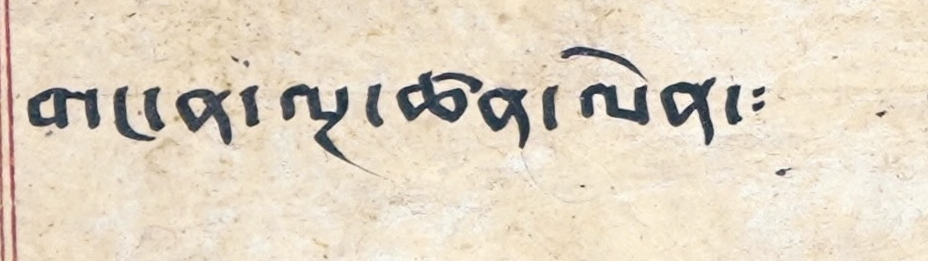གང་ན་ལྔ་ཚེན་ལེན་༴
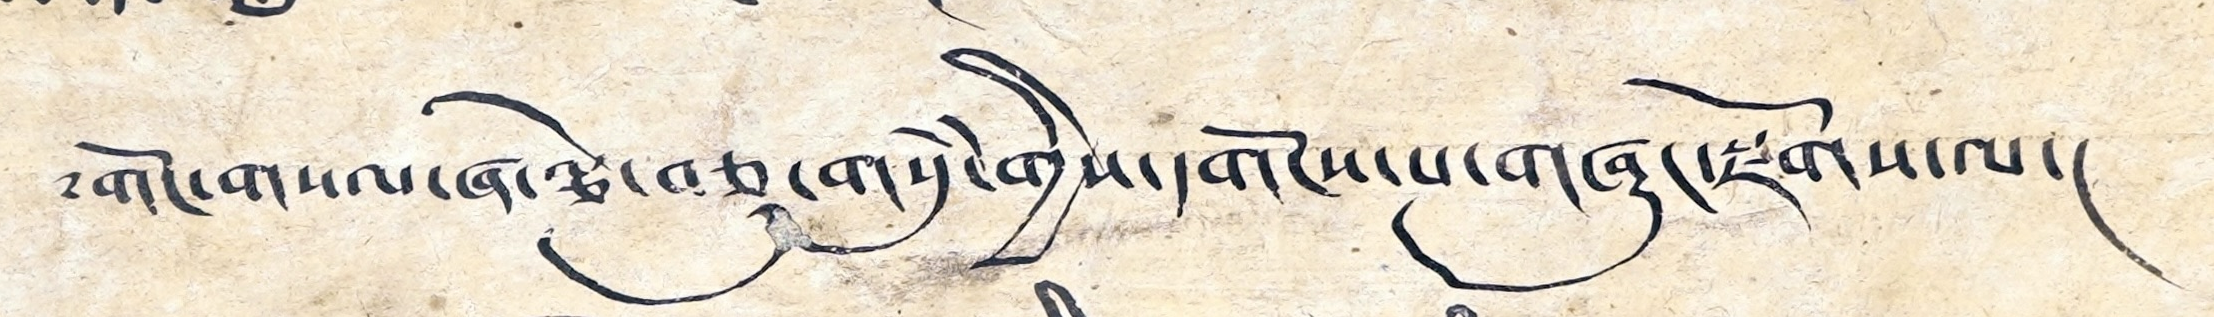༢ གོང་གསལ་ཞལྕེ་བཅུ་གསུཾ་གྱིས་དགོངས་པ་གཞུང་རྫོགས་ལ་།
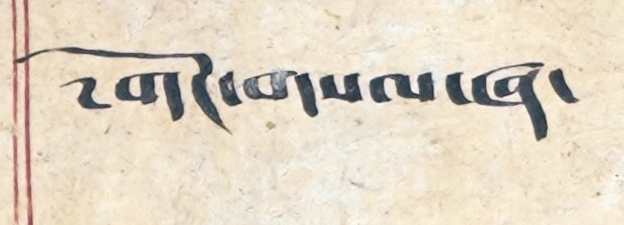༢ གོང་གསལ་ཞ་
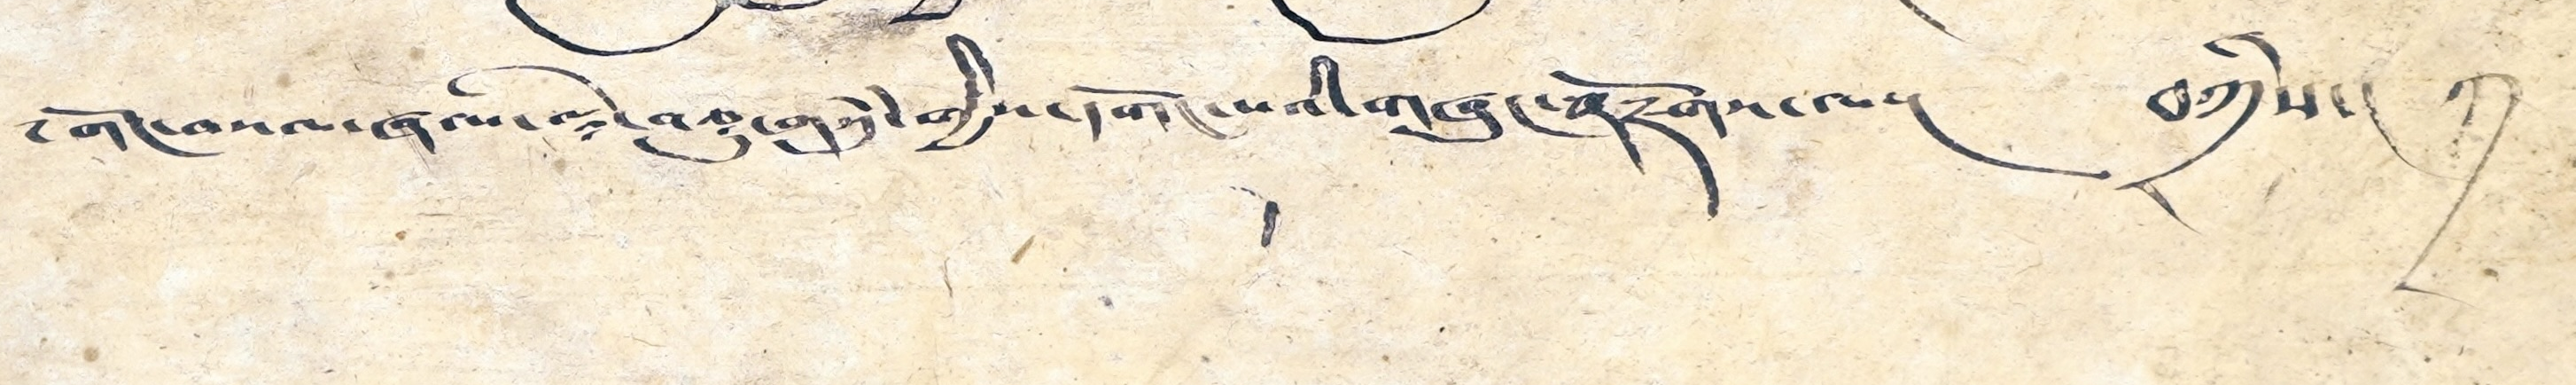༢ གོང་གསལ་ཞལ་ལྕེ་བཅུ་གསུཾ་གྱིས་དགོང་པའི་གཞུང་རྫོགས་པ་། བཀྲིས་།
